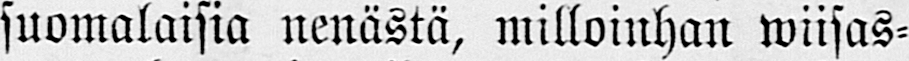suomalaisia nenästä, milloinhan wiisas-
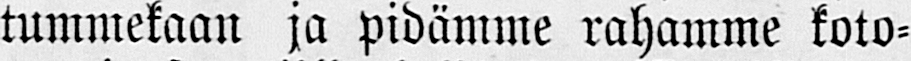tummekaan ja pidämme rahamme koto-
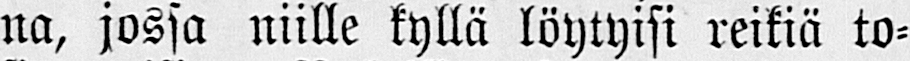na, jossa niille kyllä löytyisi reikiä to-
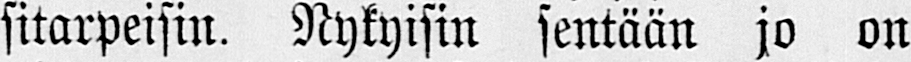sitarpeisin. Nykyisin sentään jo on
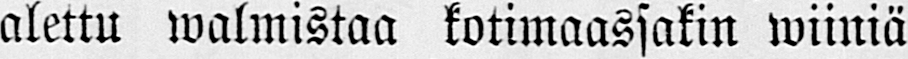alettu walmistaa kotimaassakin wiiniä
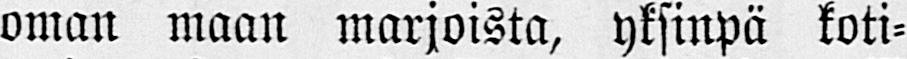oman maan marjoista, yksinpä koti-
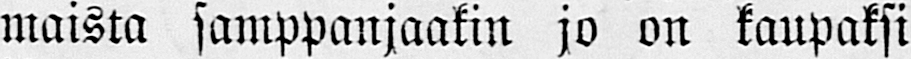maista samppanjaakin jo on kaupaksi
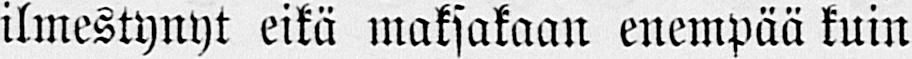ilmestynyt eikä maksakaan enempää kuin
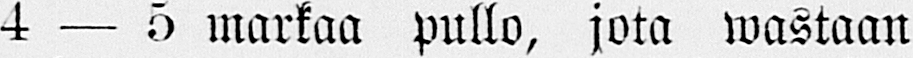4 — 5 markaa pullo, jota wastaan
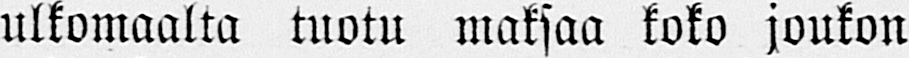ulkomaalta tuotu maksaa koko joukon
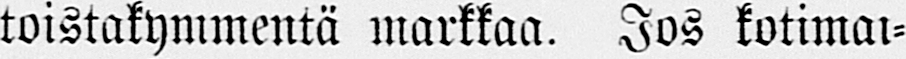toistakymmentä markkaa. Jos kotimai-
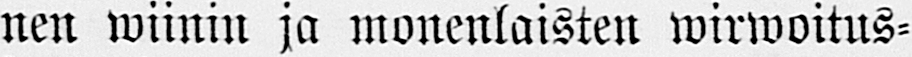nen wiinin ja monenlaisten wirwoitus-
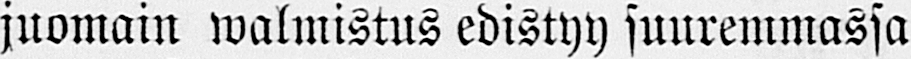juomain walmistus edistyy suuremmassa
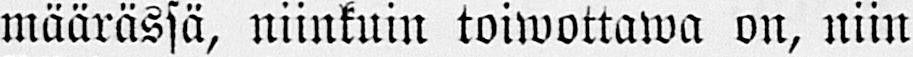määrässä, niinkuin toiwottawa on, niin
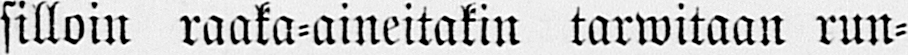silloin raaka-aineitakin tarwitaan run-
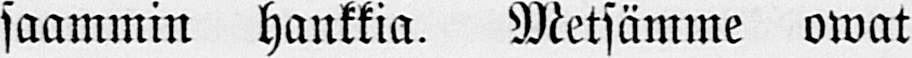saammin hankkia. Metsämme owat
